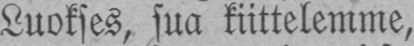Luokses, sua kiitelemme,
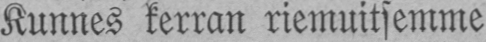Kunnes kerran riemuitsemme
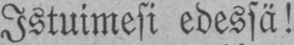Istuimesi edessä!
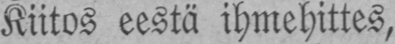Kiitos eestä ihmehittes,
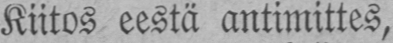Kiitos eestä antimittes,
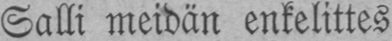Salli meidän enkelittes
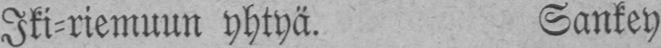Iki-riemuun yhtyä. Sankey.
